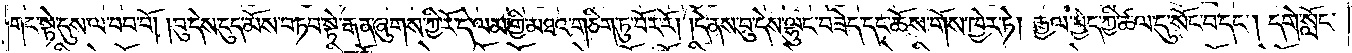གང་སྟེ་དུས་ལ་བབ་བོ། །བུ་དེས་དུད་མོས་བཏབ་སྟེ་རྒན་ཞུགས་ཀྱི་རོ་དེ་ལམ་གྱི་མཐའ་གཅིག་ཏུ་བོར་རོ། །དེ་ནས་བུ་དེས་ལྷུང་བཟེད་དང་ཆོས་གོས་ཁྱེར་ཏེ། རྒྱལ་བྱེད་ཀྱི་ཚལ་དུ་སོང་བ་དང༌། དགེ་སློང་
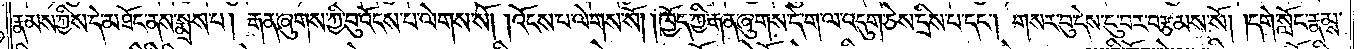རྣམས་ཀྱིས་དེ་མཐོང་ནས་སྨྲས་པ། རྒན་ཞུགས་ཀྱི་བུ་འོངས་པ་ལེགས་སོ། །འོངས་པ་ལེགས་སོ། །ཁྱོད་ཀྱི་རྒན་ཞུགས་དེ་ག་ལ་འདུག་ཅེས་དྲིས་པ་དང༌། གསར་བུ་དེས་ངུ་བར་བརྩམས་སོ། །དགེ་སློང་རྣམས་
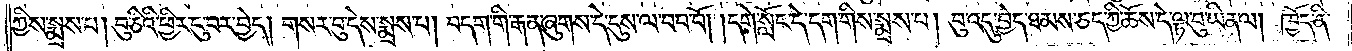ཀྱིས་སྨྲས་པ། བུ་ཅིའི་ཕྱིར་ངུ་བར་བྱེད། གསར་བུ་དེས་སྨྲས་པ། བདག་གི་རྒན་ཞུགས་དེ་དུས་ལ་བབ་བོ། །དགེ་སློང་དེ་དག་གིས་སྨྲས་པ། བུ་འདུ་བྱེད་ཐམས་ཅད་ཀྱི་ཆོས་དེ་ལྟ་བུ་ཡིན་ལ། ཁྱོད་ནི་
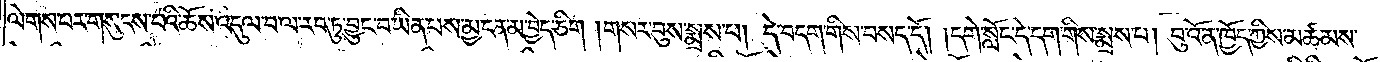ལེགས་པར་གསུངས་པའི་ཆོས་འདུལ་བ་ལ་རབ་ཏུ་བྱུང་བ་ཡིན་པས་མྱ་ངན་མ་བྱེད་ཅིག །གསར་བུས་སྨྲས་པ། དེ་བདག་གིས་བསད་དོ། །དགེ་སློང་དེ་དག་གིས་སྨྲས་པ། བུ་འོ་ན་ཁྱོད་ཀྱིས་མཚམས་
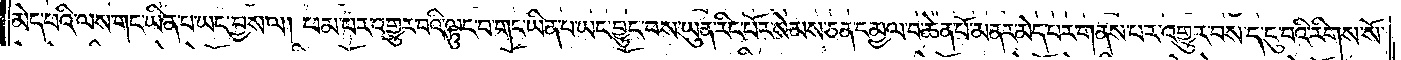མེད་པའི་ལས་གང་ཡིན་པ་ཡང་བྱས་ལ། ཕམ་པར་འགྱུར་བའི་ལྟུང་བ་གང་ཡིན་པ་ཡང་བྱུང་བས་ཡུན་རིང་པོར་སེམས་ཅན་དམྱལ་བ་ཆེན་པོ་མནར་མེད་པར་གནས་པར་འགྱུར་བས་ད་ངུ་བའི་རིགས་སོ་
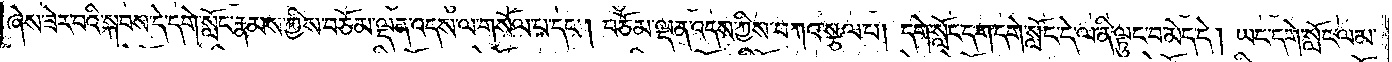ཞེས་ཟེར་བའི་སྐབས་དེ་དགེ་སློང་རྣམས་ཀྱིས་བཅོམ་ལྡན་འདས་ལ་གསོལ་པ་དང༌། བཅོམ་ལྡན་འདས་ཀྱིས་བཀའ་སྩལ་པ། དགེ་སློང་དག་དགེ་སློང་དེ་ལ་ནི་ལྟུང་བ་མེད་དེ། ཡང་དགེ་སློང་ལམ་
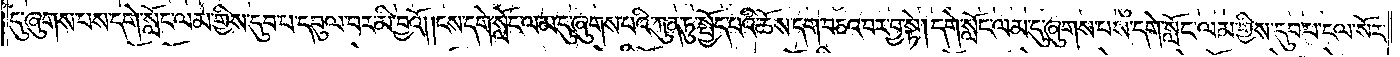དུ་ཞུགས་པས་དགེ་སློང་ལམ་གྱིས་དུབ་པ་དབུལ་བར་མི་བྱའོ། །ངས་དགེ་སློང་ལམ་དུ་ཞུགས་པའི་ཀུན་ཏུ་སྤྱོད་པའི་ཆོས་དག་བཅའ་བར་བྱ་སྟེ། དགེ་སློང་ལམ་དུ་ཞུགས་པས་དགེ་སློང་ལམ་གྱིས་དུབ་པ་ངལ་སོར་
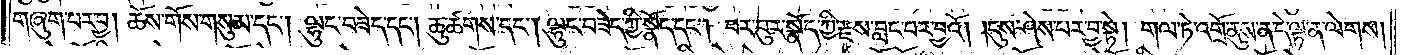གཞུག་པར་བྱ། ཆོས་གོས་གསུམ་དང༌། ལྷུང་བཟེད་དང༌། ཆུ་ཚགས་དང༌། ལྷུང་བཟེད་ཀྱི་སྣོད་དང༌། བར་བུར་སྣོད་ཀྱི་རྫས་བླང་བར་བྱའོ། །དུས་ཤེས་པར་བྱ་སྟེ། གལ་ཏེ་འགྲོ་ནུས་ན་དེ་ལྟ་ན་ལེགས།
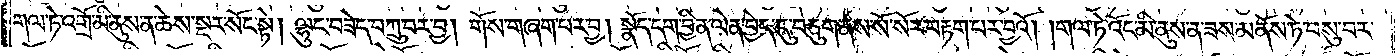གལ་ཏེ་འགྲོ་མི་ནུས་ན་ཆེས་སྔར་སོང་སྟེ། ལྷུང་བཟེད་བཀྲུ་བར་བྱ། གོས་གཞག་པར་བྱ། སྣོད་དག་བྱིན་ལེན་བྱེད་དུ་བཅུག་ནས་སོ་སོར་བརྟག་པར་བྱའོ། །གལ་ཏེ་འོང་མི་ནུས་ན་ཟས་མནོས་ཏེ་བསུ་བར་
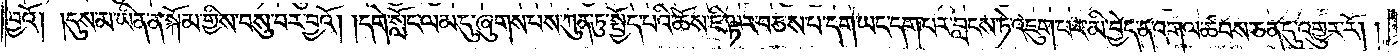བྱའོ། །དུས་མ་ཡིན་ན་སྐོམ་གྱིས་བསུ་བར་བྱའོ། །དགེ་སློང་ལམ་དུ་ཞུགས་པས་ཀུན་ཏུ་སྤྱོད་པའི་ཆོས་ཇི་ལྟར་བཅས་པ་དག་ཡང་དག་པར་བླངས་ཏེ་འཇུག་པར་མི་བྱེད་ན་འགལ་ཚབས་ཅན་དུ་འགྱུར་རོ། །
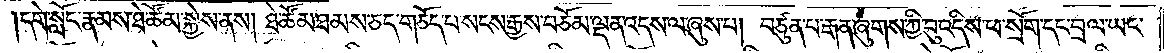དགེ་སློང་རྣམས་ཐེ་ཚོམ་སྐྱེས་ནས། ཐེ་ཚོམ་ཐམས་ཅད་གཅོད་པ་སངས་རྒྱས་བཅོམ་ལྡན་འདས་ལ་ཞུས་པ། བཙུན་པ་རྒན་ཞུགས་ཀྱི་བུ་འདིས་ཕ་སྲོག་དང་བྲལ་ཡང་
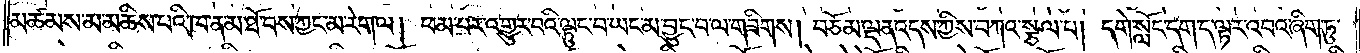མཚམས་མ་མཆིས་པའི་ཁ་ན་མ་ཐོ་བས་ཀྱང་མ་རེག་ལ། ཕམ་པར་འགྱུར་བའི་ལྟུང་བ་ཡང་མ་བྱུང་བ་ལ་གཟིགས། བཅོམ་ལྡན་འདས་ཀྱིས་བཀའ་སྩལ་པ། དགེ་སློང་དག་ད་ལྟར་འབའ་ཞིག་ཏུ་
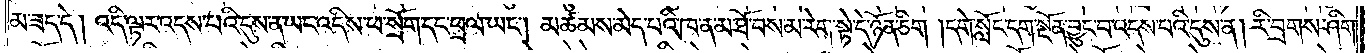མ་ཟད་དེ། འདི་ལྟར་འདས་པའི་དུས་ན་ཡང་འདིས་ཕ་སྲོག་དང་ཕྲལ་ཡང༌། མཚམས་མེད་པའི་ཁ་ན་མ་ཐོ་བས་མ་རེག་སྟེ་དེ་ཉོན་ཅིག །དགེ་སློང་དག་སྔོན་བྱུང་བ་འདས་པའི་དུས་ན། རི་བྲགས་ཤིག་
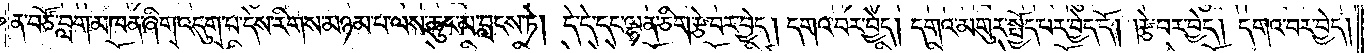ན་བཙོ་བླག་མཁན་ཞིག་འདུག་པ་དེས་རིགས་མཉམ་པ་ལས་ཆུང་མ་བླངས་ཏེ། དེ་དེ་དང་ལྷན་ཅིག་རྩེ་བར་བྱེད། དགའ་བར་བྱེད། དགའ་མགུར་སྤྱོད་པར་བྱེད་དོ། །རྩེ་བར་བྱེད། དགའ་བར་བྱེད།
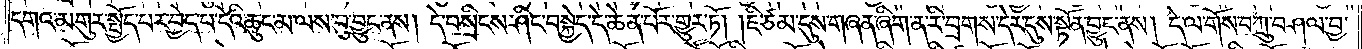དགའ་མགུར་སྤྱོད་པར་བྱེད་པ་དེའི་ཆུང་མ་ལས་བུ་བྱུང་ནས། དེ་བསྲིངས་ཤིང་བསྐྱེད་དེ་ཆེན་པོར་གྱུར་ཏོ། །ཇི་ཙམ་དུས་གཞན་ཞིག་ན་རི་བྲགས་དེར་དུས་སྟོན་བྱུང་ནས། དེ་ལ་གོས་བཀྲུ་བཤལ་བྱ་
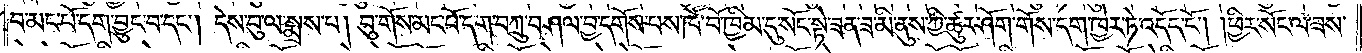བ་མང་པོ་དག་བྱུང་བ་དང༌། དེས་བུ་ལ་སྨྲས་པ། བུ་གོས་མང་པོ་དག་བཀྲུ་བཤལ་བྱ་དགོས་པས་ཁོ་བོ་ཁྱིམ་དུ་སོང་སྟེ་ཟན་ཟ་མི་ནུས་ཀྱི་ཚུར་ཤོག་གོས་དག་ཁྱེར་ཏེ་འདོང་ངོ༌། །ཕྱིར་སོང་ལ་ཟས་
